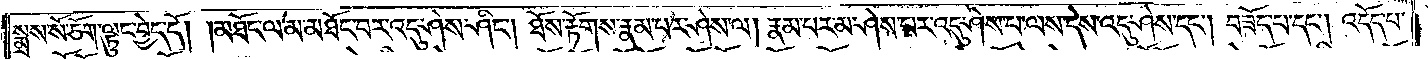སྨྲས་སོ་ཅོག་ལྟུང་བྱེད་དོ། །མཐོང་ལ་མ་མཐོང་བར་འདུ་ཤེས་ཤིང༌། ཐོས་རྟོགས་རྣམ་པར་ཤེས་ལ། རྣམ་པར་མ་ཤེས་པར་འདུ་ཤེས་པ་ལས་དེས་འདུ་ཤེས་དང༌། བཟོད་པ་དང༌། འདོད་པ་
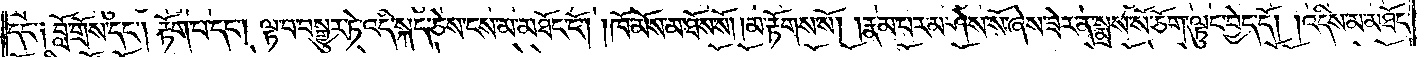དང་༑ བློ་གྲོས་དང༌། རྟོག་པ་དང༌། ལྟ་བ་བསྒྱུར་ཏེ་འདི་སྐད་ཅེས་ངས་མ་མཐོང་ངོ༌། །ཁོ་མོས་མ་ཐོས་སོ། །མ་རྟོགས་སོ། །རྣམ་པར་མ་ཤེས་སོ་ཞེས་ཟེར་ན་སྨྲས་སོ་ཅོག་ལྟུང་བྱེད་དོ། །འདིས་མ་མཐོང་
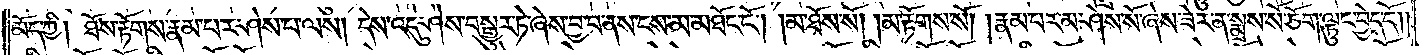མོད་ཀྱི། ཐོས་རྟོགས་རྣམ་པར་ཤེས་པ་ལས། དེས་འདུ་ཤེས་བསྒྱུར་ཏེ་ཞེས་བྱ་བ་ནས་ངས་མ་མཐོང་ངོ༌། །མ་ཐོས་སོ། །མ་རྟོགས་སོ། །རྣམ་པར་མ་ཤེས་སོ་ཞེས་ཟེར་ན་སྨྲས་སོ་ཅོག་ལྟུང་བྱེད་དོ། །
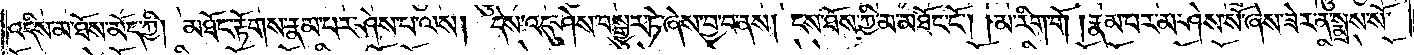འདིས་མ་ཐོས་མོད་ཀྱི། མཐོང་རྟོགས་རྣམ་པར་ཤེས་པ་ལས། དེས་འདུ་ཤེས་བསྒྱུར་ཏེ་ཞེས་བྱ་བ་ནས། ངས་ཐོས་ཀྱི་མ་མཐོང་ངོ༌། །མ་རིག་གོ །རྣམ་པར་མ་ཤེས་སོ་ཞེས་ཟེར་ན་སྨྲས་སོ་
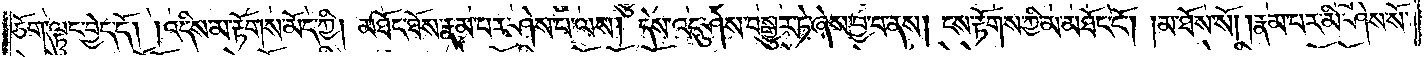ཅོག་ལྟུང་བྱེད་དོ། །འདིས་མ་རྟོགས་མོད་ཀྱི། མཐོང་ཐོས་རྣམ་པར་ཤེས་པ་ལས། དེས་འདུ་ཤེས་བསྒྱུར་ཏེ་ཞེས་བྱ་བ་ནས། ངས་རྟོགས་ཀྱི་མ་མཐོང་ངོ༌། །མ་ཐོས་སོ། །རྣམ་པར་མི་ཤེས་སོ་
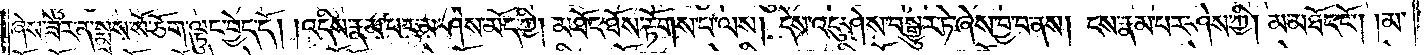ཞེས་ཟེར་ན་སྨྲས་སོ་ཅོག་ལྟུང་བྱེད་དོ། །འདིས་རྣམ་པར་མ་ཤེས་མོད་ཀྱི། མཐོང་ཐོས་རྟོགས་པ་ལས། དེས་འདུ་ཤེས་བསྒྱུར་ཏེ་ཞེས་བྱ་བ་ནས། ངས་རྣམ་པར་ཤེས་ཀྱི། མ་མཐོང་ངོ༌། །མ་
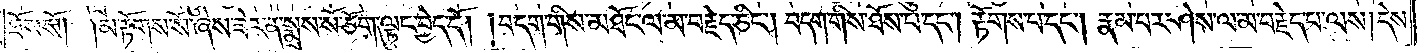ཐོས་སོ། །མ་རྟོགས་སོ་ཞེས་ཟེར་ན་སྨྲས་སོ་ཅོག་ལྟུང་བྱེད་དོ། །བདག་གིས་མཐོང་ལ་མ་བརྗེད་ཅིང༌། བདག་གིས་ཐོས་པ་དང༌། རྟོགས་པ་དང༌། རྣམ་པར་ཤེས་ལ་མ་བརྗེད་པ་ལས། དེས་
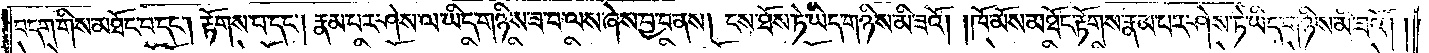བདག་གིས་མཐོང་བ་དང༌། རྟོགས་པ་དང༌། རྣམ་པར་ཤེས་ལ་ཡིད་གཉིས་ཟ་བ་ལས་ཞེས་བྱ་བ་ནས། ངས་ཐོས་ཏེ་ཡིད་གཉིས་མི་ཟའོ། །ཁོ་མོས་མཐོང་རྟོགས་རྣམ་པར་ཤེས་ཏེ་ཡིད་གཉིས་མི་ཟའོ། །
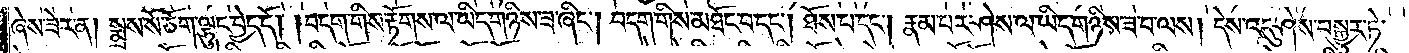ཞེས་ཟེར་ན། སྨྲས་སོ་ཅོག་ལྟུང་བྱེད་དོ། །བདག་གིས་རྟོགས་ལ་ཡིད་གཉིས་ཟ་ཞིང༌། བདག་གིས་མཐོང་བ་དང༌། ཐོས་པ་དང༌། རྣམ་པར་ཤེས་ལ་ཡིད་གཉིས་ཟ་བ་ལས། དེས་འདུ་ཤེས་བསྒྱུར་ཏེ་
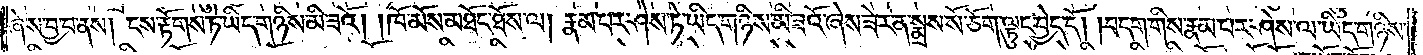ཞེས་བྱ་བ་ནས། ངས་རྟོགས་ཏེ་ཡིད་གཉིས་མི་ཟའོ། །ཁོ་མོས་མཐོང་ཐོས་ལ། རྣམ་པར་ཤེས་ཏེ་ཡིད་གཉིས་མི་ཟའོ་ཞེས་ཟེར་ན་སྨྲས་སོ་ཅོག་ལྟུང་བྱེད་དོ། །བདག་གིས་རྣམ་པར་ཤེས་ལ་ཡིད་གཉིས་
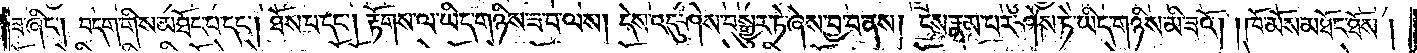ཟ་ཞིང༌། བདག་གིས་མཐོང་བ་དང༌། ཐོས་པ་དང༌། རྟོགས་ལ་ཡིད་གཉིས་ཟ་བ་ལས། དེས་འདུ་ཤེས་བསྒྱུར་ཏེ་ཞེས་བྱ་བ་ནས། ངས་རྣམ་པར་ཤེས་ཏེ་ཡིད་གཉིས་མི་ཟའོ། །ཁོ་མོས་མཐོང་ཐོས།
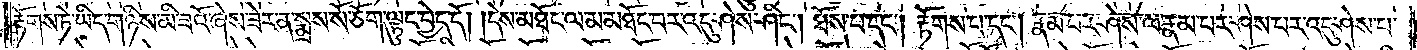རྟོགས་ཏེ་ཡིད་གཉིས་མི་ཟའོ་ཞེས་ཟེར་ན་སྨྲས་སོ་ཅོག་ལྟུང་བྱེད་དོ། །དེས་མཐོང་ལ་མ་མཐོང་བར་འདུ་ཤེས་ཤིང༌། ཐོས་པ་དང༌། རྟོགས་པ་དང༌། རྣམ་པར་ཤེས་ལ་རྣམ་པར་ཤེས་པར་འདུ་ཤེས་པ་
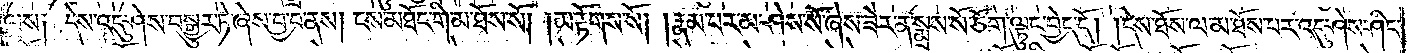ལས༑ དེས་འདུ་ཤེས་བསྒྱུར་ཏེ་ཞེས་བྱ་བ་ནས། ངས་མཐོང་གི་མ་ཐོས་སོ། །མ་རྟོགས་སོ། །རྣམ་པར་མ་ཤེས་སོ་ཞེས་ཟེར་ན་སྨྲས་སོ་ཅོག་ལྟུང་བྱེད་དོ། །དེས་ཐོས་ལ་མ་ཐོས་པར་འདུ་ཤེས་ཤིང་
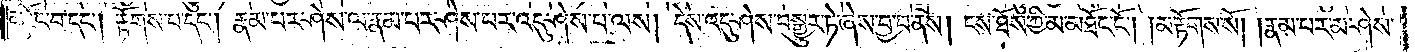མཐོང་བ་དང༌། རྟོགས་པ་དང༌། རྣམ་པར་ཤེས་ལ་རྣམ་པར་ཤེས་པར་འདུ་ཤེས་པ་ལས། དེས་འདུ་ཤེས་བསྒྱུར་ཏེ་ཞེས་བྱ་བ་ནས། ངས་ཐོས་ཀྱི་མ་མཐོང་ངོ༌། །མ་རྟོགས་སོ། །རྣམ་པར་མ་ཤེས་
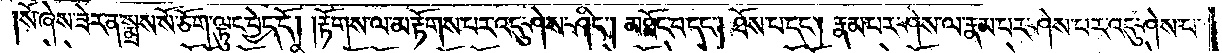སོ་ཞེས་ཟེར་ན་སྨྲས་སོ་ཅོག་ལྟུང་བྱེད་དོ། །རྟོགས་ལ་མ་རྟོགས་པར་འདུ་ཤེས་ཤིང༌། མཐོང་བ་དང༌། ཐོས་པ་དང༌། རྣམ་པར་ཤེས་ལ་རྣམ་པར་ཤེས་པར་འདུ་ཤེས་པ་
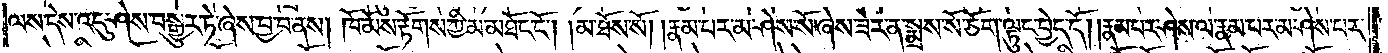ལས་དེས་འདུ་ཤེས་བསྒྱུར་ཏེ་ཞེས་བྱ་བ་ནས། ཁོ་མོས་རྟོགས་ཀྱི་མ་མཐོང་ངོ༌། །མ་ཐོས་སོ། །རྣམ་པར་མ་ཤེས་སོ་ཞེས་ཟེར་ན་སྨྲས་སོ་ཅོག་ལྟུང་བྱེད་དོ། །རྣམ་པར་ཤེས་ལ་རྣམ་པར་མ་ཤེས་པར་
